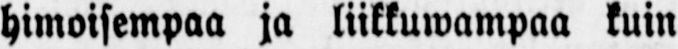himoisempaa ja liikkuwampaa kuin
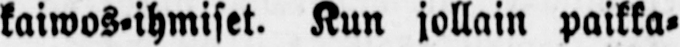kaiwos-ihmiset. Kun jollain paikka-
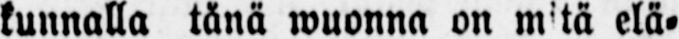kunnalla tänä wuonna on mitä elä-
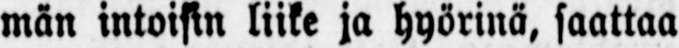män intoisin liike ja hyörinä, saattaa
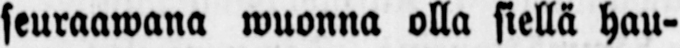seuraawana wuonna olla siellä hau-
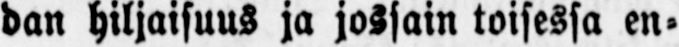dan hiljaisuus ja jossain toisessa en-
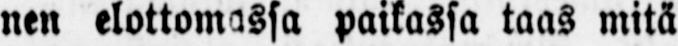nen elottomassa paikassa taas mitä
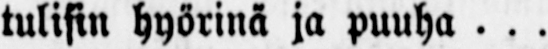tulisin hyörinä ja puuha...
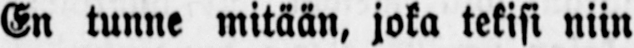En tunne mitään, joka tekisi niin
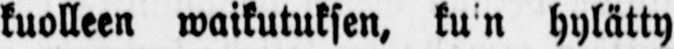kuolleen waikutuksen, ku in hylätty
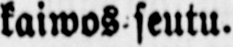kaiwos seutu.
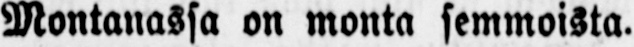Montanassa on monta semmoista.
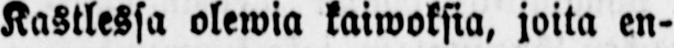Kastlessa olewia kaiwoksia, joita en-
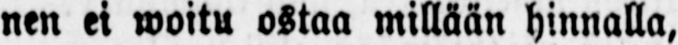nen ei woitu ostaa millään hinnalla,
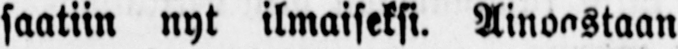saatiin nyt ilmaiseksi. Ainoastaan
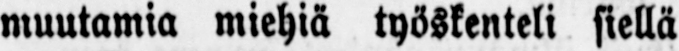muutamia miehiä työskenteli siellä
